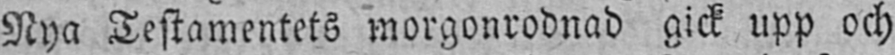Nya Testamentets morgonrodnad gick upp och
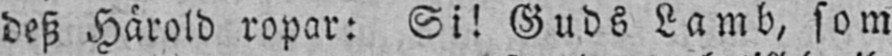desz Härold ropar: Si! Guds Lamb, som
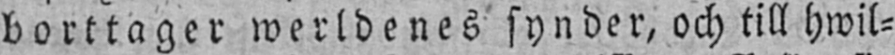borttager werldenes synder, och till hwil-
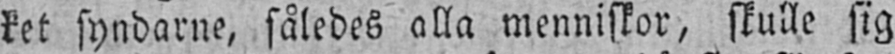ket syndarne, således alla menniskor, skulle sig
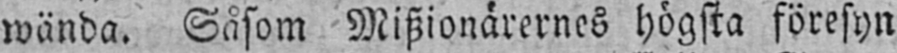wända. Såsom Miszionärernes högsta föresyn
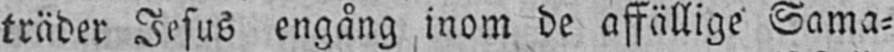träder Jesus engång inom de affällige Sama-
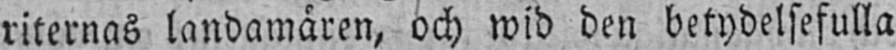riternas landamåren, och wid den betydelsefulla
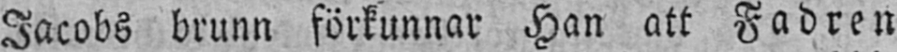Jacobs brunn förkunnar Han att Fadren
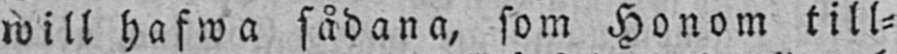will hafwa sådana, som Honom till-
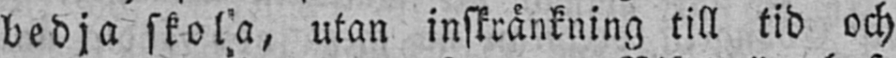bedja skola, utan inskränkning till tid och
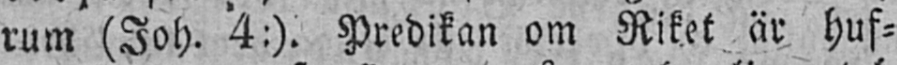rum (Joh. 4:). Predikan om Riket är huf-
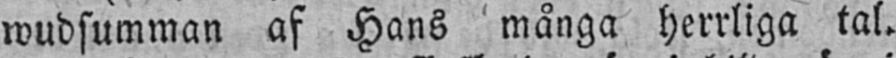wudsumman af Hans många herrliga tal.
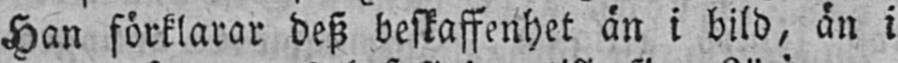Han förklarar desz beskaffenhet än i bild, än i
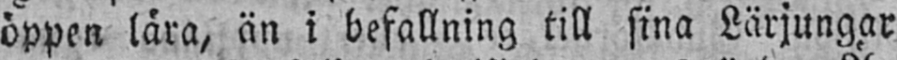öppen lära, än i befallning till sina Lärjungar
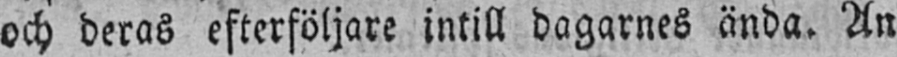och deras efterföljare intill dagarnes ända. Än
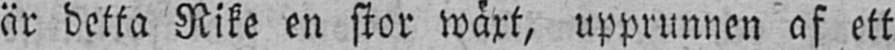är detta Rike en stor wäxt, upprunnen af ett
